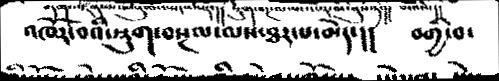འཁོར་བའི་སྡུག་བསྔལ་ལས་ཐར་པ་མེད་།།    བགྱི་བ་
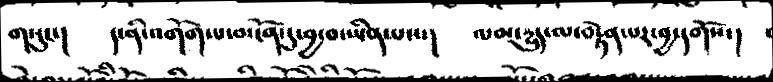གསུང་།   ད་ནི་འགོག་པ་མངོན་དུ་བྱ་བ་ཡིན་པས་།   ལམ་དྱུད་ལ་བརྟེན་པར་བྱ་དགོས་།
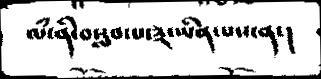ལམ་ནི་བསླབ་པ་༣་ཡིན་པས་ན་།
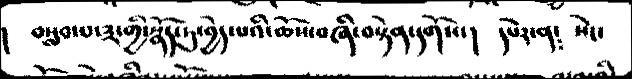།  བསླབ་པ་༣་གྱི་སྣོད་ཏུ་བྱེ་པའི་ཆོས་བཞི་བསྟེན་དགོས་།   དཔེར་ན༴   སེང་
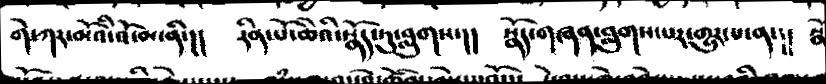གེ་ཀར་མོའི་འོ་མ་ནི་།།     རིན་པོ་ཆེའི་སྣོད་ཏུ་བླུགས་།།   སྣོད་གཞན་བླུགས་པར་གྱུར་པ་ན་།།    སྣོ
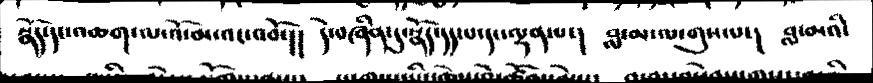སྣོད་དང་འཆག་ལ་འོ་མ་འང་འབོ་།།     དེ་བཞིན་དུ་སྣོད་དད་པ་དང་ལྡན་པ་།    བླ་མ་ལ་གུས་པ་།    བླ་མའི་
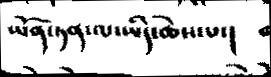ཡོན་ཏན་ལ་ཡིད་ཆེས་པ་།
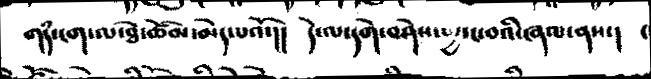གདཾ་ངག་ལ་ཐེ་ཚོམ་མེད་པའོ་།།     དེ་ལ་དགེ་བཤེས་བདྱ་ང་བའི་ཞལ་ནས་།
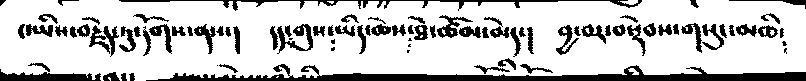ང་ཡིས་བརྗེད་ཏུ་དོགས་ནས་།   དད་གུས་ཡིད་ཆེས་ཐེ་ཚོམ་མེད་།    བྱ་བར་བསྡེབས་གསུང་མཆི།
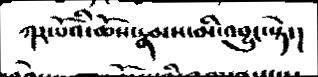ཀར་པོའི་ཆོས་རྣམས་མི་འབྱུང་སྟེ་།
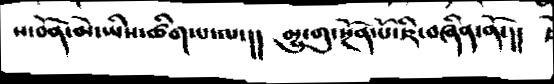ས་བོན་མེ་ཡིས་ཚིག་པ་ལ་།།  མྱུ་གུ་སྔོན་པོ་ཇི་བཞིན་ནོ་།།
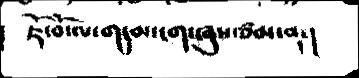ཇོ་བོ་ལ་གདམ་ངག་ཞུས་ཙམ་ན་།
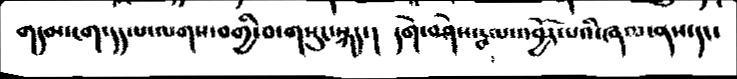གདམ་ངག་དད་པ་ལགས་བགྱི་བ་གསུང་སྐད་།     དགེ་བཤེས་རྣལ་འབྱོར་བའི་ཞལ་ནས་དང་
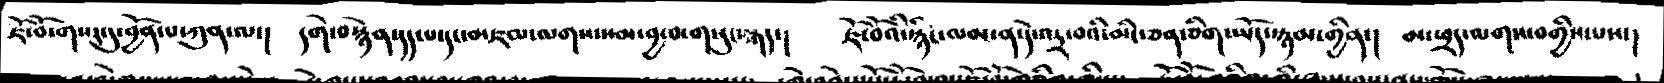ཇོ་བོ་གསང་དུ་བྱོན་པ་ཀུན་ལ་།   དགེ་བསྙེན་དད་པདང་མཇལ་ལགས་སམ་བྱ་བ་གསུང་སྐད་།   ཇོ་བོའི་སྙིང་ལམ་ན་དེ་འདྲ་བའི་མིང་ཅན་ཡོད་སྙམ་གྱིན་།   མ་ཕྲད་ལགས་བགྱིས་པས་།
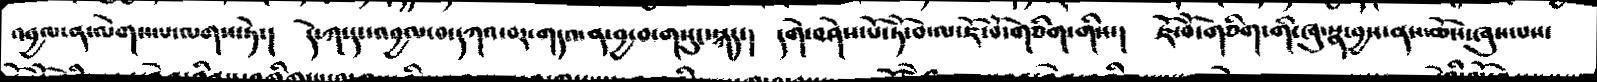འབྱལ་ན་ལེགས་པ་ལགས་ཏེ་།   དེ་ཀ་དང་འབྱལ་བ་དཀའ་བར་གདའ་ན་བྱ་བ་གསུང་སྐད་།   དགེ་བཤེས་པོ་ཏོ་བ་ལ་ཇོ་བོ་གཅིག་གིས་།   ཇོ་བོ་གཅིག་གི་ཞུ་སྣ་བྱས་ནས་ཆོས་ཞུས་པས་
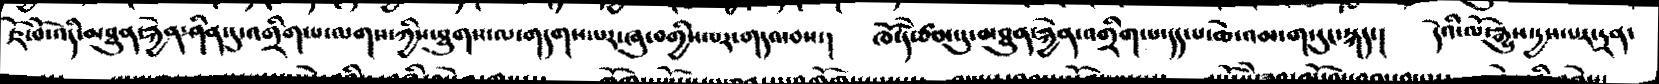ཇོ་བོ་འདི་མཐུན་རྐྱེན་ཤིན་དུ་འགྲིག་པ་ལགས་ཀྱིས་ཐུགས་ལ་གདགས་པར་ཞུ་བགྱིས་པར་གདའ་བས་།  ཁོ་དེ་ཙམ་དུ་མཐུན་རྐྱེན་འགྲིག་པ་དད་པ་ཆེ་འམ་གསུང་སྐད་།      དེའི་ལོ་རྒྱུས་དྱས་པར་དྲན་
